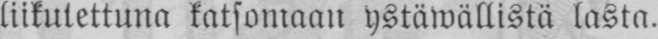liikutettuna katsomaan ystäwällistä lasta.
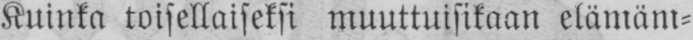Kuinka toisellaiseksi muuttuisikaan elämäm-
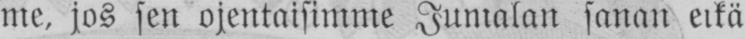me. jos sen ojentaisimme Jumalan sanan eikä
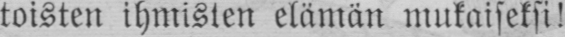toisten ihmisten elämän mukaiseksi!
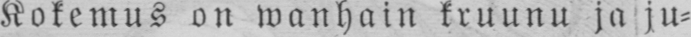Kokemus on wanhain kruunu ja ju-
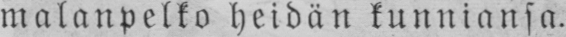malanpelko heidän kunniansa.
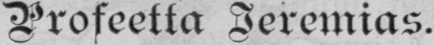Profeetta Jeremias.
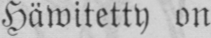Häwitetty on
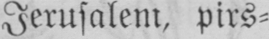Jerusalem, pirs-
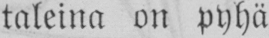taleina on pyhä
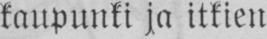kaupunki ja itkien
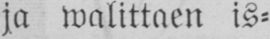ja walittaen is-
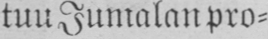tuu Jumalan pro-
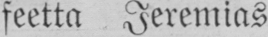feetta Jeremias
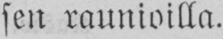sen raunioilla.
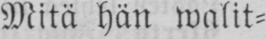Mitä hän walit-
